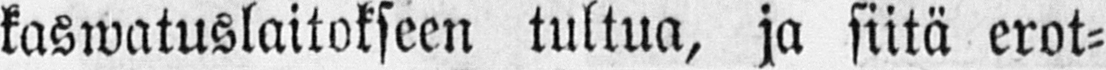kaswatuslaitokseen tultua, ja siitä erot-
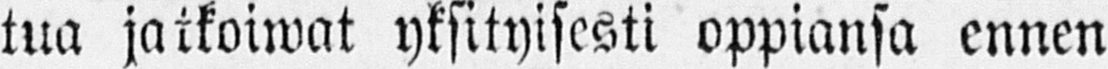tua jaikoiwat yksityisesti oppiansa ennen
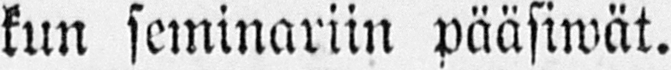kun seminariin pääsiwät.
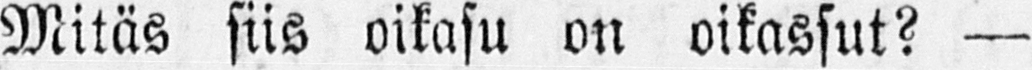Mitäs siis oikasu on oikassut? —
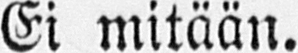Ei mitään.
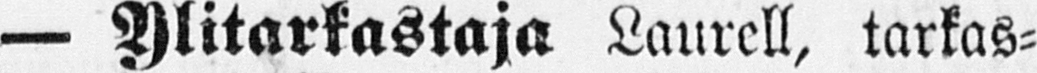— Ylitarkastaja Laurell, tarkas-
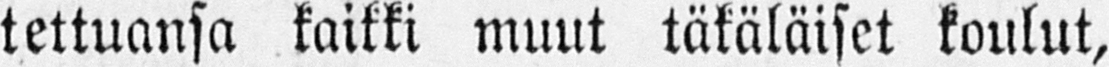tettuansa kaikki muut täkäläiset koulut,
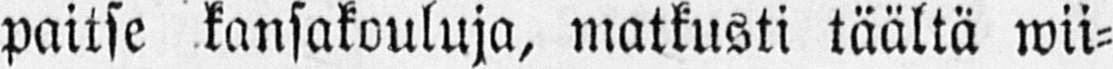paitse kansakouluja, matkusti täältä wii-
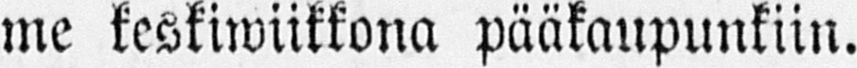me keskiwiikkona pääkaupunkiin.
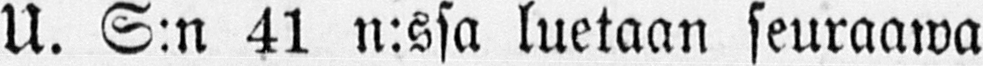U. S:n 41 n:ssa luetaan seuraawa
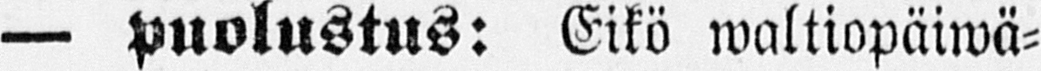— Puolustus: Eikö waltiopäiwä-
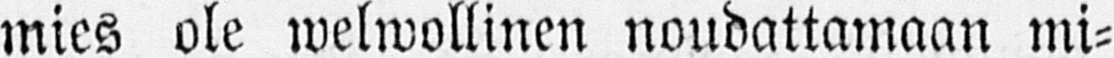mies ole welwollinen noudattamaan mi-
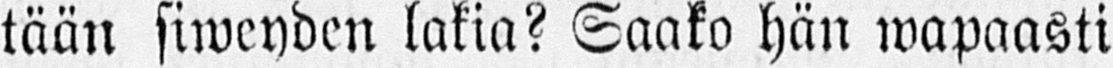tään siweyden lakia? Saako hän wapaasti
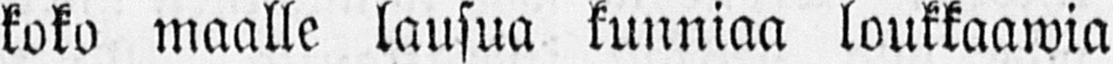koko maalle lausua kunniaa loukkaawia
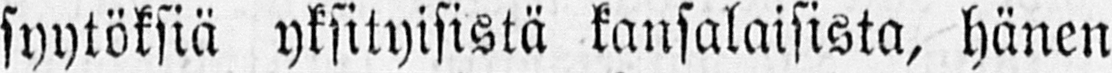syytöksiä yksityisistä kansalaisista, hänen
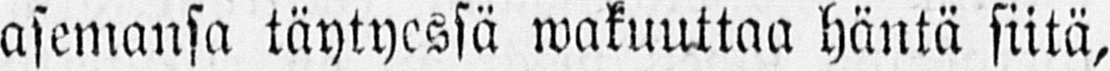asemansa täytyessä wakuuttaa häntä siitä,
